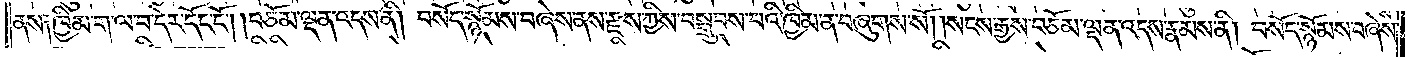ནས༑ ཁྱིམ་ག་ལ་བ་དེར་དོང་ངོ༌། །བཅོམ་ལྡན་འདས་ནི། བསོད་སྙོམས་བཞེས་ནས་རྫས་ཀྱིས་བསྒྲུབས་པའི་ཁྱིམ་ན་བཞུགས་སོ། །སངས་རྒྱས་བཅོམ་ལྡན་འདས་རྣམས་ནི། བསོད་སྙོམས་བཞེས་
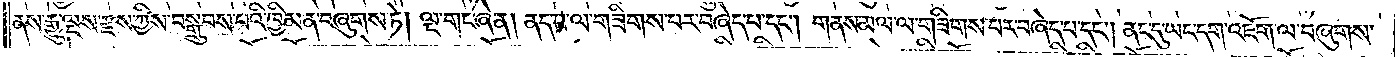ནས་རྒྱུ་ལྔས་རྫས་ཀྱིས་བསྒྲུབས་པའི་ཁྱིམ་ན་བཞུགས་ཏེ། ལྔ་གང་ཞེ་ན། ནད་པ་ལ་གཟིགས་པར་བཞེད་པ་དང༌། གནས་མལ་ལ་གཟིགས་པར་བཞེད་པ་དང༌། ནང་དུ་ཡང་དག་འཇོག་ལ་བཞུགས་
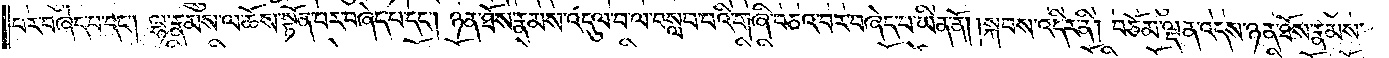པར་བཞེད་པ་དང༌། ལྷ་རྣམས་ལ་ཆོས་སྟོན་པར་བཞེད་པ་དང༌། ཉན་ཐོས་རྣམས་འདུལ་བ་ལ་བསླབ་པའི་གཞི་བཅའ་བར་བཞེད་པ་ཡིན་ནོ། །སྐབས་འདིར་ནི། བཅོམ་ལྡན་འདས་ཉན་ཐོས་རྣམས་
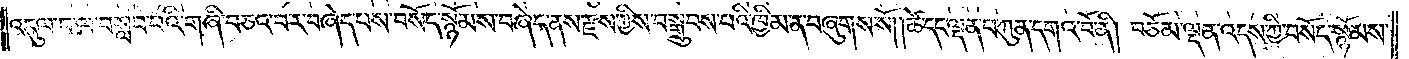འདུལ་བ་ལ་བསླབ་པའི་གཞི་བཅའ་བར་བཞེད་པས་བསོད་སྙོམས་བཞེད་ནས་རྫས་ཀྱིས་བསྒྲུབས་པའི་ཁྱིམ་ན་བཞུགས་སོ། །ཚེ་དང་ལྡན་པ་ཀུན་དགའ་བོ་ནི། བཅོམ་ལྡན་འདས་ཀྱི་བསོད་སྙོམས་
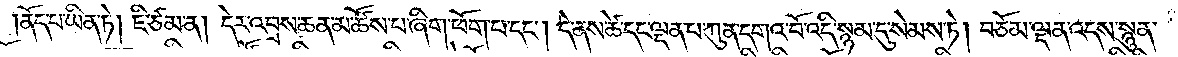ནོད་པ་ཡིན་ཏེ། ཇི་ཙམ་ན། དེར་འབྲས་ཆན་མ་ཚོས་པ་ཞིག་ཕོག་པ་དང༌། དེ་ནས་ཚེ་དང་ལྡན་པ་ཀུན་དགའ་བོ་འདི་སྙམ་དུ་སེམས་ཏེ། བཅོམ་ལྡན་འདས་སྙུན་
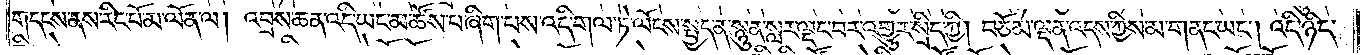གདངས་ནས་རིང་པོ་མ་ལོན་ལ། འབྲས་ཆན་འདི་ཡང་མ་ཚོས་པ་ཞིག་པས་འདི་གལ་ཏེ་ལོངས་སྤྱད་ན་སྙུན་སླར་ལྡང་བར་འགྱུར་སྲིད་ཀྱི། བཅོམ་ལྡན་འདས་ཀྱིས་མ་གནང་ཡང༌། འདི་ཉིད་
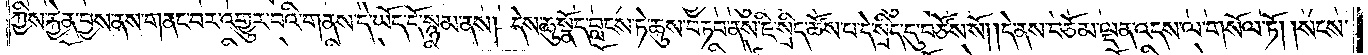ཀྱིས་རྐྱེན་བྱས་ནས་གནང་བར་འགྱུར་བའི་གནས་དེ་ཡོད་དོ་སྙམ་ནས། དེས་ཆུ་སྣོད་བླངས་ཏེ་ཆུས་བཏབ་ནས་ཇི་སྲིད་ཚོས་པ་དེ་སྲིད་དུ་བཙོས་སོ། །དེ་ནས་བཅོམ་ལྡན་འདས་ལ་གསོལ་ཏོ། །སངས་
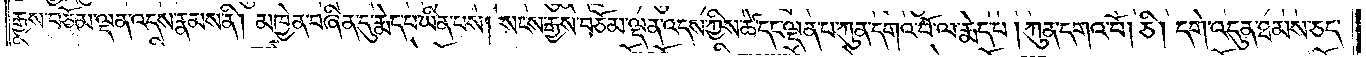རྒྱས་བཅོམ་ལྡན་འདས་རྣམས་ནི། མཁྱེན་བཞིན་དུ་རྨེད་པ་ཡིན་པས། སངས་རྒྱས་བཅོམ་ལྡན་འདས་ཀྱིས་ཚེ་དང་ལྡན་པ་ཀུན་དགའ་བོ་ལ་རྨེད་པ། ཀུན་དགའ་བོ། ཅི། དགེ་འདུན་ཐམས་ཅད་
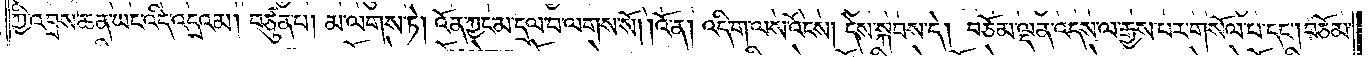ཀྱི་འབྲས་ཆན་ཡང་འདི་འདྲའམ། བཙུན་པ། མ་ལགས་ཏེ། འོན་ཀྱང་མ་དྲལ་བ་ལགས་སོ། །འོ་ན། འདི་ག་ལས་འོངས། དེས་སྐབས་དེ། བཅོམ་ལྡན་འདས་ལ་རྒྱས་པར་གསོལ་པ་དང༌། བཅོམ་
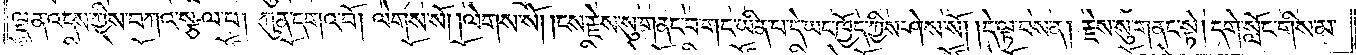ལྡན་འདས་ཀྱིས་བཀའ་སྩལ་པ། ཀུན་དགའ་བོ། ལེགས་སོ། །ལེགས་སོ། །ངས་རྗེས་སུ་གནང་བ་གང་ཡིན་པ་དེ་ཡང་ཁྱོད་ཀྱིས་ཤེས་སོ། །དེ་ལྟ་བས་ན། རྗེས་སུ་གནང་སྟེ། དགེ་སློང་གིས་མ་
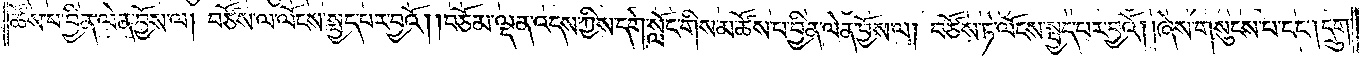ཚེས་པ་བྱིན་ལེན་བྱོས་ལ། བཙོས་ལ་ལོངས་སྤྱད་པར་བྱའོ། །བཅོམ་ལྡན་འདས་ཀྱིས་དགེ་སློང་གིས་མ་ཚོས་པ་བྱིན་ལེན་བྱོས་ལ། བཙོས་ཏེ་ལོངས་སྤྱད་པར་བྱའོ། །ཞེས་གསུངས་པ་དང༌། དྲུག་
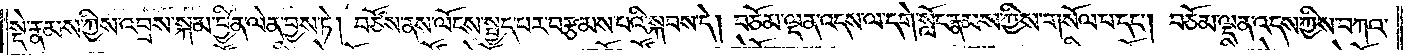སྡེ་རྣམས་ཀྱིས་འབྲས་སྐམ་བྱིན་ལེན་བྱས་ཏེ། བཙོས་ནས་ལོངས་སྤྱད་པར་བརྩམས་པའི་སྐབས་དེ། བཅོམ་ལྡན་འདས་ལ་དགེ་སློང་རྣམས་ཀྱིས་གསོལ་པ་དང༌། བཅོམ་ལྡན་འདས་ཀྱིས་བཀའ་
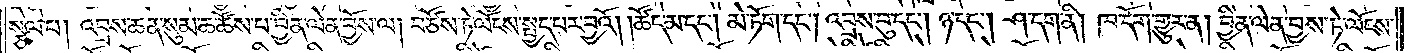སྩལ་པ། འབྲས་ཆན་སུམ་ཆ་ཚོས་པ་བྱིན་ལེན་བྱོས་ལ། བཙོས་ཏེ་ལོངས་སྤྱད་པར་བྱའོ། །ཚོད་མ་དང༌། མེ་ཏོག་དང༌། འབྲས་བུ་དང༌། ཉ་དང༌། ཤ་དག་ནི། ཁ་དོག་གྱུར་ན། བྱིན་ལེན་བྱས་ཏེ་ལོངས་
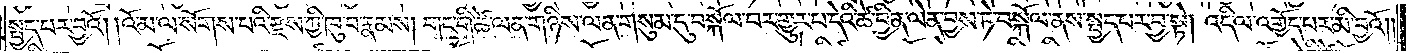སྤྱད་པར་བྱའོ། །འོ་མ་ལ་སོགས་པའི་རྫས་ཀྱི་ཁུ་བ་རྣམས། གང་གི་ཚེ་ལན་གཉིས་ལན་གསུམ་དུ་བསྐོལ་བར་གྱུར་པ་དེའི་ཚེ་བྱིན་ལེན་བྱས་ཏེ་བསྐོལ་ནས་སྤྱད་པར་བྱ་སྟེ། འདི་ལ་འགྱོད་པར་མི་བྱའོ། །
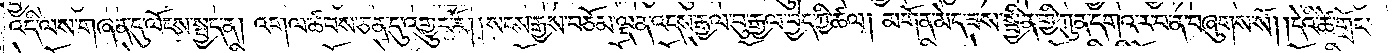འདི་ལས་གཞན་དུ་ལོངས་སྤྱད་ན། འགལ་ཚབས་ཅན་དུ་འགྱུར་རོ། །སངས་རྒྱས་བཅོམ་ལྡན་འདས་རྒྱལ་བུ་རྒྱལ་བྱེད་ཀྱི་ཚལ། མགོན་མེད་ཟས་སྦྱིན་གྱི་ཀུན་དགའ་ར་བ་ན་བཞུགས་སོ། །དེའི་ཚེ་གྲོང་
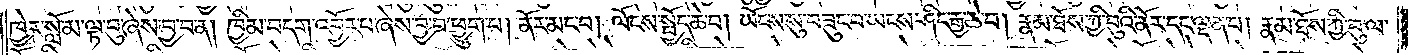ཁྱེར་སློ་མ་ལྟ་བུ་ཞེས་བྱ་བ་ན། ཁྱིམ་བདག་འབྱོར་པ་ཞེས་བྱ་བ་ཕྱུག་པ། ནོར་མང་བ། ལོངས་སྤྱོད་ཆེ་བ། ཡོངས་སུ་བཟུང་བ་ཡངས་ཤིང་རྒྱ་ཆེ་བ། རྣམ་ཐོས་ཀྱི་བུའི་ནོར་དང་ལྡན་པ། རྣམ་ཐོས་ཀྱི་བུ་ལ་
